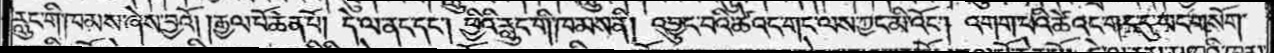རླུང་གི་ཁམས་ཞེས་བྱའོ། །རྒྱལ་པོ་ཆེན་པོ། དེ་ལ་ནང་དང༌། ཕྱིའི་རླུང་གི་ཁམས་ནི། འབྱུང་བའི་ཚེའང་གང་ལས་ཀྱང་མི་འོང༌། འགག་པའི་ཚེའང་གང་དུ་ཡང་གསོག་
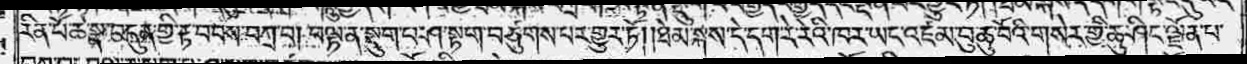རིན་པོ་ཆེ་སྣ་བདུན་གྱི་རྟ་བབས་བཀྲ་བ། བལྟ་ན་སྡུག་པ་ཤ་སྟག་བཙུགས་པར་གྱུར་ཏོ། །ཐེམ་སྐས་དེ་དག་རེ་རེའི་ཁར་ཡང་འཛམ་བུ་ཆུ་བོའི་གསེར་གྱི་ཆུ་ཤིང་ལྗོན་པ་
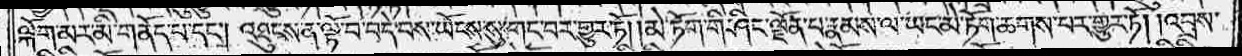ལྐོག་མར་མི་གནོད་པ་དང༌། འཐུངས་ན་ལྟོ་བ་བདེ་བས་ཡོངས་སུ་གང་བར་གྱུར་ཏོ། །མེ་ཏོག་གི་ཤིང་ལྗོན་པ་རྣམས་ལ་ཡང་མེ་ཏོག་ཆགས་པར་གྱུར་ཏོ། །འབྲས་
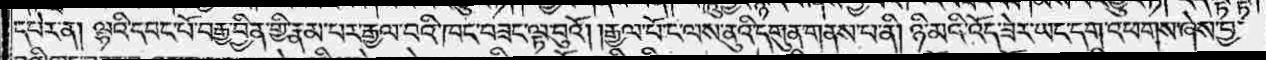དཔེར་ན། ལྷའི་དབང་པོ་བརྒྱ་བྱིན་གྱི་རྣམ་པར་རྒྱལ་བའི་ཁང་བཟང་ལྟ་བུའོ། །རྒྱལ་པོ་ང་ལས་ནུའི་དགུན་གནས་པ་ནི། ཉི་མའི་འོད་ཟེར་ཡང་དག་འཕགས་ཞེས་བྱ་
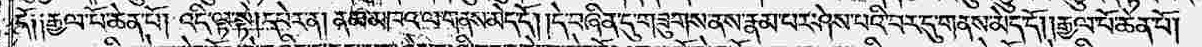དོ༑ ༑རྒྱལ་པོ་ཆེན་པོ། འདི་ལྟ་སྟེ། དཔེར་ན། ནམ་མཁའ་ལ་གནས་མེད་དོ། །དེ་བཞིན་དུ་གཟུགས་ནས་རྣམ་པར་ཤེས་པའི་བར་དུ་གནས་མེད་དོ། །རྒྱལ་པོ་ཆེན་པོ།
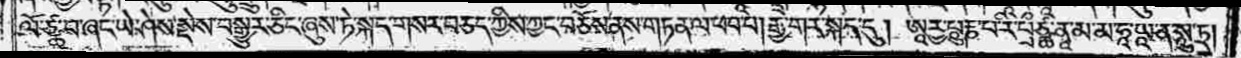ལོ་ཙྪ་བ་ཞང་ཡེ་ཤེས་སྡེས་བསྒྱུར་ཅིང་ཞུས་ཏེ་སྐད་གསར་བཅད་ཀྱིས་ཀྱང་བཅོས་ནས་གཏན་ལ་ཕབ་པ།    རྒྱ་གར་སྐད་དུ། ཨཱཪྻ་པཱུརྞ་པ་རི་པྲྀཙྪ་ནཱ་མ་མ་ཧཱ་ཡཱ་ན་སཱུ་ཏྲ།
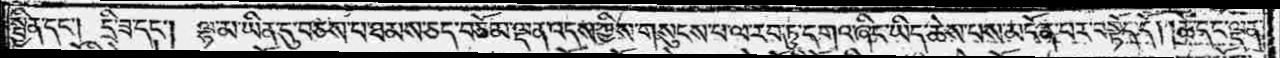སྦྱིན་དང༌། དྲི་ཟ་དང༌། ལྷ་མ་ཡན་དུ་བཅས་པ་ཐམས་ཅད་བཅོམ་ལྡན་འདས་ཀྱིས་གསུངས་པ་ལ་རབ་ཏུ་དགའ་ཞིང་ཡིད་ཆེས་པས་མངོན་པར་བསྟོད་དོ། །ཚེ་དང་ལྡན་
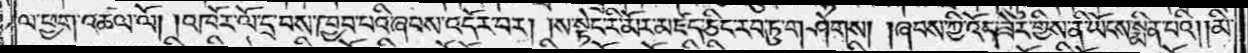ལ་ཕྱག་འཚལ་ལོ། །འཁོར་ལོ་དྲ་བས་ཁྱབ་པའི་ཞབས་འདོར་བར། །ས་སྟེང་རི་མོར་མཛད་ཅིང་རབ་ཏུ་གཤེགས། །ཞབས་ཀྱི་འོད་ཟེར་གྱིས་ནི་ཡོངས་སྨིན་པའི། །མི་
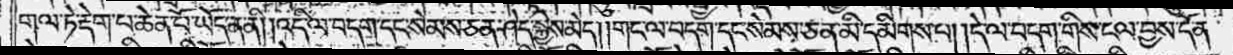གལ་ཏེ་རྡེག་པ་ཆེན་པོ་ཡོད་ན་ནི། །འདི་ལ་བདག་དང་སེམས་ཅན་ཤེད་སྐྱེས་མེད། །གང་ལ་བདག་དང་སེམས་ཅན་མི་དམིགས་པ། །དེ་ལ་བདག་གིས་ངལ་བྱས་དོན་
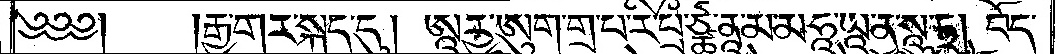༄༅༅༎རྒྱ་གར་སྐད་དུ། ཨཱཪྻ་ཨུག་གྲ་པ་རི་པྲྀ་ཙྪཱ་ནཱ་མ་མ་ཧཱ་ཡཱ་ན་སཱུ་ཏྲ། བོད་
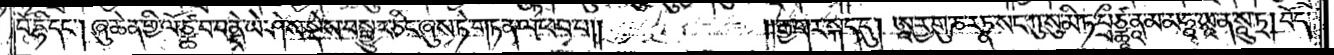བོ་དྷི་དང༌། ཞུ་ཆེན་གྱི་ལོ་ཙྪ་བ་བནྡེ་ཡེ་ཤེས་སྡེས་བསྒྱུར་ཅིང་ཞུས་ཏེ་གཏན་ལ་ཕབ་པ༎༎རྒྱ་གར་སྐད་དུ། ཨཱཪྻ་གུ་ཎ་རཏྣ་སང་ཀུ་སུ་མི་ཏ་པྲྀཙྪཱ་ནཱ་མ་མཧཱ་ཡཱ་ན་སཱུ་ཏྲ། བོད་
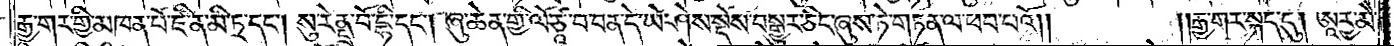རྒྱ་གར་གྱི་མཁན་པོ་ཛི་ན་མི་ཏྲ་དང༌། སུ་རེནྡྲ་བོ་དྷི་དང༌། ཞུ་ཆེན་གྱི་ལོ་ཙཱ་བ་བན་དེ་ཡེ་ཤེས་སྡེས་བསྒྱུར་ཅིང་ཞུས་ཏེ་གཏན་ལ་ཕབ་པའོ༎༎རྒྱ་གར་སྐད་དུ། ཨཱཪྻ་མཻ་
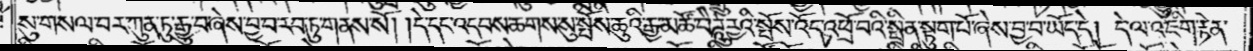སུ་གསལ་བར་ཀུན་ཏུ་རྒྱུ་བ་ཞེས་བྱ་བ་རབ་ཏུ་གནས་སོ། །དེ་དང་འདབས་ཆགས་སུ་སྤོས་ཆུའི་རྒྱ་མཚོ་བཻ་ཌཱཪྻའི་སྤོས་འོད་འཕྲོ་བའི་སྤྲིན་སྟུག་པོ་ཞེས་བྱ་བ་ཡོད་དེ། དེ་ལ་འཇིག་རྟེན་
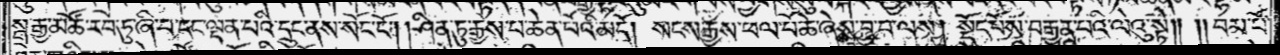སྒྲ་རྒྱ་མཚོ་རབ་ཏུ་ཞི་བ་དང་ལྡན་པའི་དྲུང་ནས་སོང་ངོ༌། །ཤིན་ཏུ་རྒྱས་པ་ཆེན་པོའི་མདོ། སངས་རྒྱས་ཕལ་པོ་ཆེ་ཞེས་བྱ་བ་ལས། སྡོང་པོས་བརྒྱན་པའི་ལེའུ་སྟེ༎ ༈ ༎བམ་པོ་
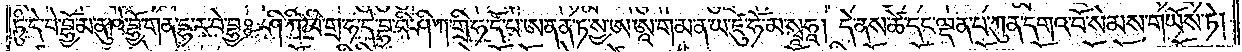ཏུཾ་དེ་བེ་བྷྱོ་མ་ནུ་ཥེ་བྷྱོ་གན་དྷ་ར་བེ་བྷྱཿཤི་ཀི་ཁི་གྲ་ཧ་དེ་བྷ་བི་ཤི་ཀ་གྲི་ཧ་དོ་པ་ཨ་ནན་ཏ་སྱ་ཨ་ཨཱ་ག་མ་ན་ཡ་ཛུ་ཧོ་མ་སྭཱཧཱ། དེ་ནས་ཚེ་དང་ལྡན་པ་ཀུན་དགའ་བོ་སེམས་གཡོས་ཏེ།
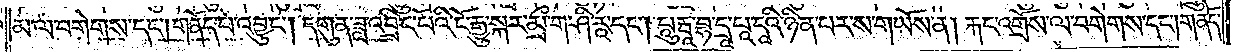མ་ལ་བགེགས་དང༌། གནོད་པ་འབྱུང༌། དགུན་ཟླ་འབྲིང་པོའི་ངོ་རྒྱུ་སྐར་མྲྀ་ག་ཤི་རཱ་དང༌། པཱུརྦཱ་བྷ་དྲཱ་པཱ་དཱའི་ཉིན་པར་ས་གཡོས་ན། རྐང་འགྲོས་ལ་བགེགས་དང༌། གནོད་
